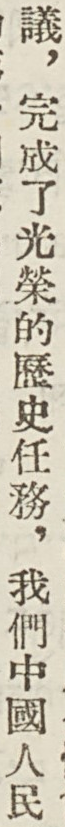議，完成了光榮的歷史任務，我們中國人民
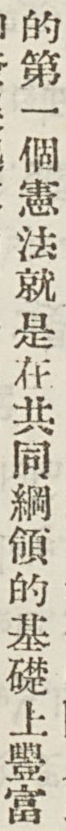的第一個憲法就是在共同綱領的基礎上豐富
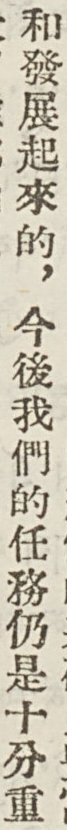和發展起來的，今後我們的任務仍是十分重
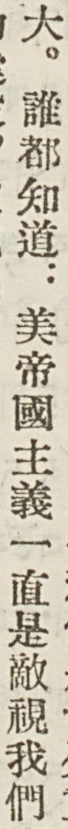大。誰都知道：美帝國主義一直是敵視我們
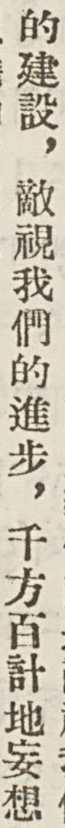的建設，敵視我們的進步，千方百計地妄想
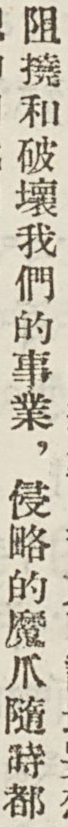阻撓和破壞我們的事業，侵略的魔爪隨時都
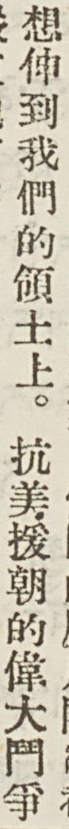想伸到我們的領土上。抗美援朝的偉大鬥爭
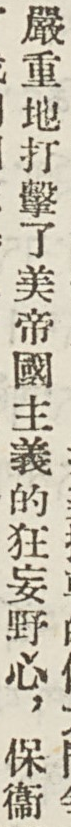嚴重地打擊了美帝國主義的狂妄野心，保衛
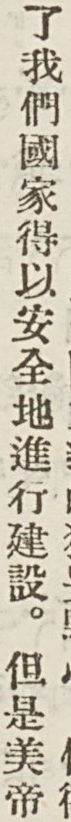了我們國家得以安全地進行建設。但是美帝
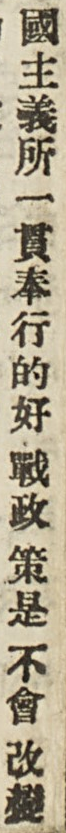國主義所一貫奉行的好戰政策是 不會 改變
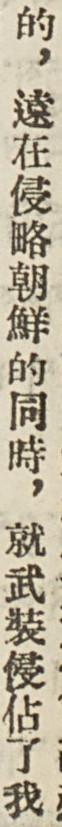的，遠在侵略朝鮮的同時，就武裝侵佔了我
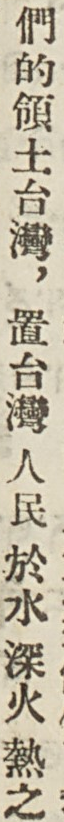們的領土台灣，置台灣 人民 於水 深火熱之
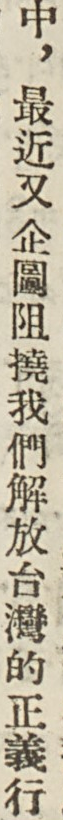中，最近有企圖阻撓我們解放台灣的正義行
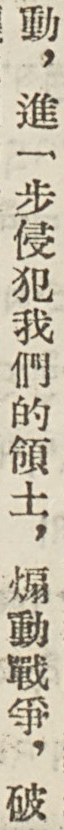動，進一步侵犯我們的領土，煽動戰爭，破
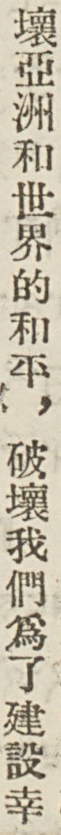壞亞洲和世界的和平，破壞我們爲了建設幸
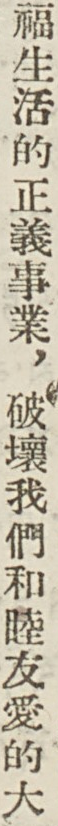福生活的正義事業，破壞我們和睦友愛的大
